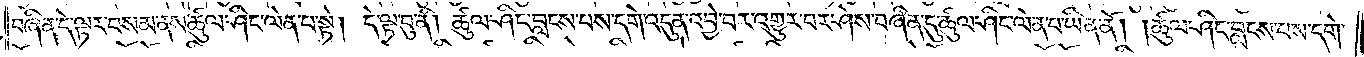བཞིན་དེ་ལྟར་བསམ་ནས་ཚུལ་ཤིང་ལེན་པ་སྟེ། དེ་ལྟ་བུ་ནི། ཚུལ་ཤིང་བླངས་པས་དགེ་འདུན་འབྱེ་བར་འགྱུར་བར་ཤེས་བཞིན་དུ་ཚུལ་ཤིང་ལེན་པ་ཡིན་ནོ། །ཚུལ་ཤིང་བླངས་པས་དགེ་
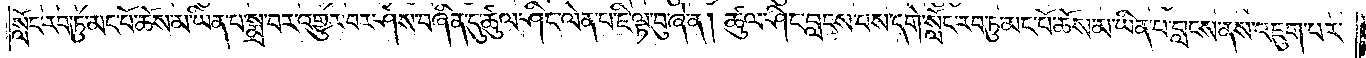སློང་རབ་ཏུ་མང་པོ་ཆོས་མ་ཡིན་པ་སྨྲ་བར་འགྱུར་བར་ཤེས་པ་བཞིན་དུ་ཚུལ་ཤིང་ལེན་པ་ཇི་ལྟ་བུ་ཞེ་ན། ཚུལ་ཤིང་བླངས་པས་དགེ་སློང་རབ་ཏུ་མང་པོ་ཆོས་མ་ཡིན་པ་བླངས་ནས་འཇུག་པར་
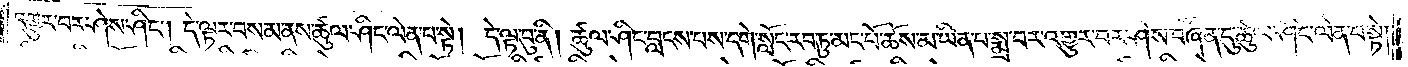འགྱུར་བར་ཤེས་ཤིང༌། དེ་ལྟར་བསམ་ནས་ཚུལ་ཤིང་ལེན་པ་སྟེ། དེ་ལྟ་བུ་ནི། ཚུལ་ཤིང་བླངས་པས་དགེ་སློང་རབ་ཏུ་མང་པོ་ཆོས་མ་ཡིན་པ་སྨྲ་བར་འགྱུར་བར་ཤེས་བཞིན་དུ་ཚུལ་ཤིང་ལེན་པ་སྟེ།
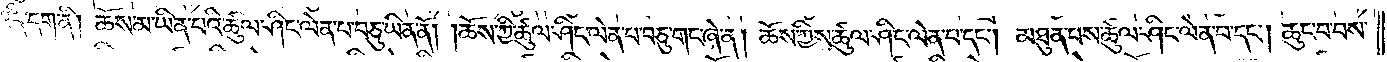འདི་དག་ནི། ཆོས་མ་ཡིན་པའི་ཚུལ་ཤིང་ལེན་པ་བཅུ་ཡིན་ནོ། །ཆོས་ཀྱི་ཚུལ་ཤིང་ལེན་པ་བཅུ་གང་ཞེ་ན། ཆོས་ཀྱིས་ཚུལ་ཤིང་ལེན་པ་དང༌། མཐུན་པས་ཚུལ་ཤིང་ལེན་པ་དང༌། ཆུང་བ་བས་
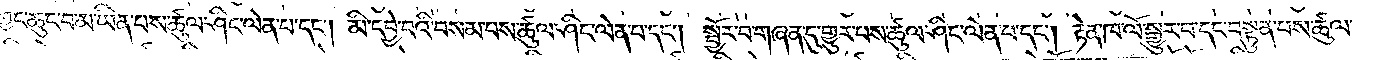ཀྱང་ཆུང་བ་མ་ཡིན་པས་ཚུལ་ཤིང་ལེན་པ་དང༌། མི་དབྱེ་བའི་བསམ་པས་ཚུལ་ཤིང་ལེན་པ་དང༌། སྦྱོར་བ་གཞན་དུ་གྱུར་པས་ཚུལ་ཤིང་ལེན་པ་དང༌། རྟེན་ཁ་ལོ་སྒྱུར་བ་དང་བསྟུན་པས་ཚུལ་
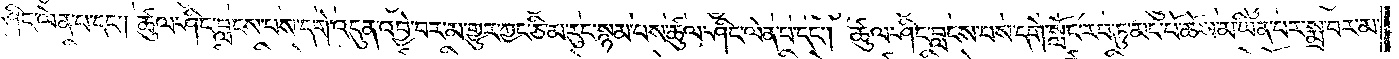ཤིང་ལེན་པ་དང༌། ཚུལ་ཤིང་བླངས་པས་དགེ་འདུན་འབྱེ་བར་མ་གྱུར་ཀྱང་ཅི་མ་རུང་སྙམ་པས་ཚུལ་ཤིང་ལེན་པ་དང༌། ཚུལ་ཤིང་བླངས་པས་དགེ་སློང་རབ་ཏུ་མང་པོ་ཆོས་མ་ཡིན་པར་སྨྲ་བར་མ་
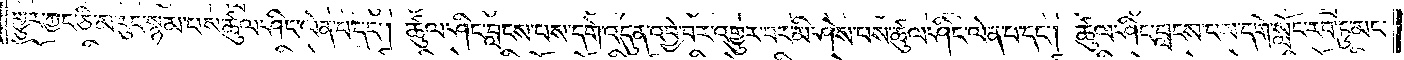གྱུར་ཀྱང་ཅི་མ་རུང་སྙམ་པས་ཚུལ་ཤིང་ལེན་པ་དང༌། ཚུལ་ཤིང་བླངས་པས་དགེ་འདུན་འབྱེ་བར་འགྱུར་བར་མི་ཤེས་པས་ཚུལ་ཤིང་ལེན་པ་དང༌། ཚུལ་ཤིང་བླངས་པས་དགེ་སློང་རབ་ཏུ་མང་
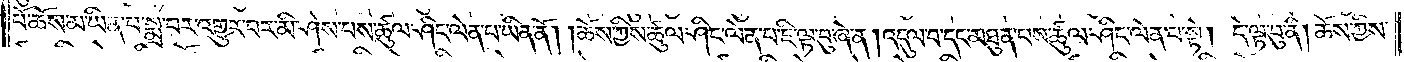པོ་ཆོས་མ་ཡིན་པ་སྨྲ་བར་འགྱུར་བར་མི་ཤེས་པས་ཚུལ་ཤིང་ལེན་པ་ཡིན་ནོ། །ཆོས་ཀྱིས་ཚུལ་ཤིང་ལེན་པ་ཇི་ལྟ་བུ་ཞེ་ན། འདུལ་བ་དང་མཐུན་པས་ཚུལ་ཤིང་ལེན་པ་སྟེ། དེ་ལྟ་བུ་ནི། ཆོས་ཀྱིས་
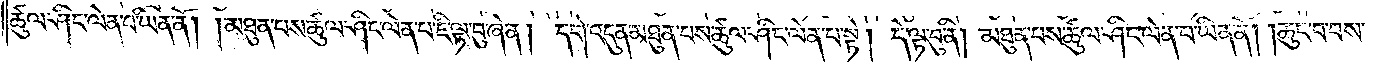ཚུལ་ཤིང་ལེན་པ་ཡིན་ནོ། །མཐུན་པས་ཚུལ་ཤིང་ལེན་པ་ཇི་ལྟ་བུ་ཞེ་ན། དགེ་འདུན་མཐུན་པས་ཚུལ་ཤིང་ལེན་པ་སྟེ། དེ་ལྟ་བུ་ནི། མཐུན་པས་ཚུལ་ཤིང་ལེན་པ་ཡིན་ནོ། །ཆུང་བ་བས་
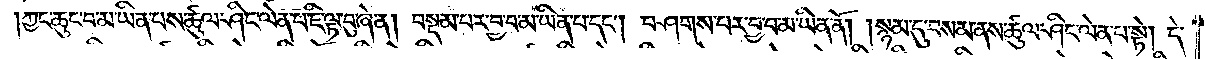ཀྱང་ཆུང་བ་མ་ཡིན་པས་ཚུལ་ཤིང་ལེན་པ་ཇི་ལྟ་བུ་ཞེ་ན། བསྡམ་པར་བྱ་བ་མ་ཡིན་པ་དང༌། བཤགས་པར་བྱ་བ་མ་ཡིན་ནོ། །སྙམ་དུ་བསམ་ནས་ཚུལ་ཤིང་ལེན་པ་སྟེ། དེ་
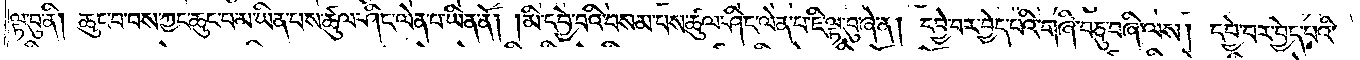ལྟ་བུ་ནི། ཆུང་བ་བས་ཀྱང་ཆུང་བ་མ་ཡིན་པས་ཚུལ་ཤིང་ལེན་པ་ཡིན་ནོ། །མི་དབྱེ་བའི་བསམ་པས་ཚུལ་ཤིང་ལེན་པ་ཇི་ལྟ་བུ་ཞེ་ན། དབྱེ་བར་བྱེད་པའི་གཞི་བཅུ་བཞི་ལས། དབྱེ་བར་བྱེད་པའི་
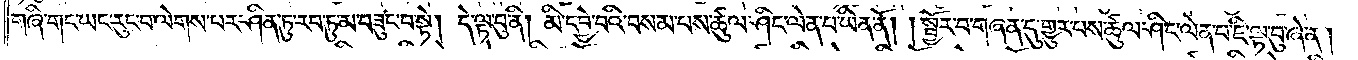གཞི་གང་ཡང་རུང་བ་ལེགས་པར་ཤིན་ཏུ་རབ་ཏུ་མ་བཟུང་བ་སྟེ། དེ་ལྟ་བུ་ནི། མི་དབྱེ་བའི་བསམ་པས་ཚུལ་ཤིང་ལེན་པ་ཡིན་ནོ། །སྦྱོར་བ་གཞན་དུ་གྱུར་པས་ཚུལ་ཤིང་ལེན་པ་ཇི་ལྟ་བུ་ཞེ་ན།
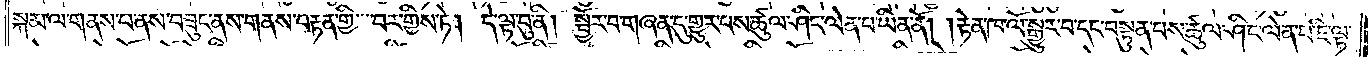སྐམ་ལ་གནས་པ་ནས་བཟུང་ནས་གནས་བརྟན་གྱི་བར་གྱིས་ཏེ། དེ་ལྟ་བུ་ནི། སྦྱོར་བ་གཞན་དུ་གྱུར་པས་ཚུལ་ཤིང་ལེན་པ་ཡིན་ནོ། །རྟེན་ཁ་ལོ་སྒྱུར་བ་དང་བསྟུན་པས་ཚུལ་ཤིང་ལེན་པ་ཇི་ལྟ་
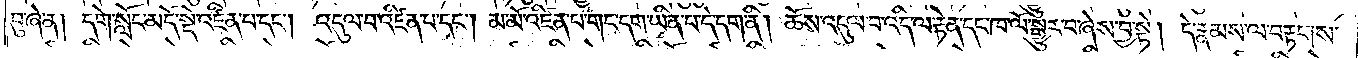བུ་ཞེ་ན། དགེ་སློང་མདོ་སྡེ་འཛིན་པ་དང༌། འདུལ་བ་འཛིན་པ་དང༌། མ་མོ་འཛིན་པ་གང་དག་ཡིན་པ་དེ་དག་ནི། ཆོས་འདུལ་བ་འདི་ལ་རྟེན་དང་ཁ་ལོ་སྒྱུར་བ་ཞེས་བྱ་སྟེ། དེ་རྣམས་ལ་བརྟགས་
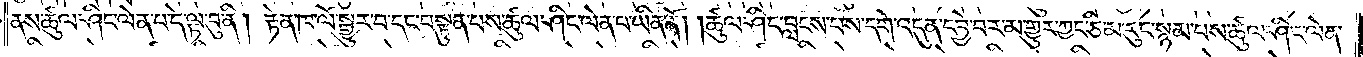ནས་ཚུལ་ཤིང་ལེན་པ་དེ་ལྟ་བུ་ནི། རྟེན་ཁ་ལོ་སྒྱུར་བ་དང་བསྟུན་པས་ཚུལ་ཤིང་ལེན་པ་ཡིན་ནོ། །ཚུལ་ཤིང་བླངས་པས་དགེ་འདུན་དབྱེ་བར་མ་གྱུར་ཀྱང་ཅི་མ་རུང་སྙམ་པས་ཚུལ་ཤིང་ལེན་
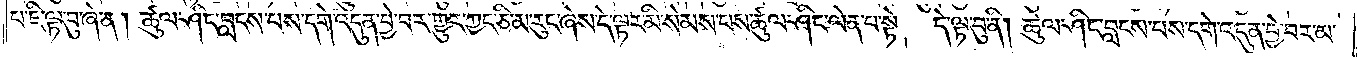པ་ཇི་ལྟ་བུ་ཞེ་ན། ཚུལ་ཤིང་བླངས་པས་དགེ་འདུན་བྱེ་བར་གྱུར་ཀྱང་ཅི་མ་རུང་ཞེས་དེ་ལྟར་མི་སེམས་པས་ཚུལ་ཤིང་ལེན་པ་སྟེ། དེ་ལྟ་བུ་ནི། ཚུལ་ཤིང་བླངས་པས་དགེ་འདུན་བྱེ་བར་མ་
